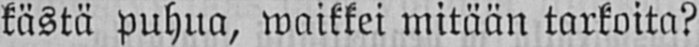kästä puhua, waikkei mitään tarkoita?
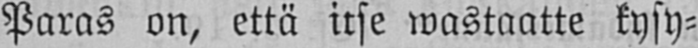Paras on, että itse wastaatte kysy-
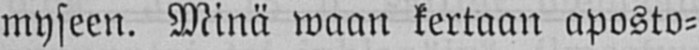myseen. Minä waan kertaan aposto-
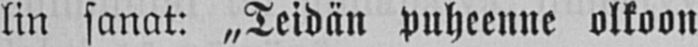lin sanat: „Teidän puheenne olkoon
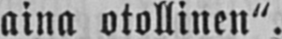aina otollinen".
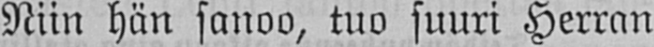Niin hän sanoo, tuo suuri Herran
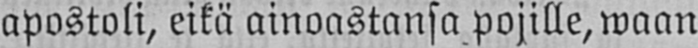apostoli, eikä ainoastansa pojille, waan
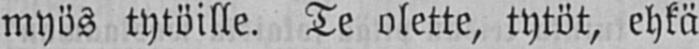myös tytöille. Te olette, tytöt, ehkä
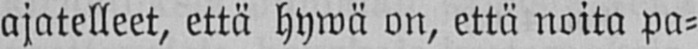ajatelleet, että hywä on, että noita pa-
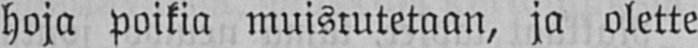hoja poikia muistutetaan, ja olette
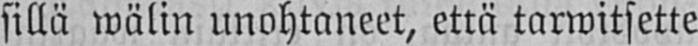sillä wälin unohtaneet, että tarwitsette
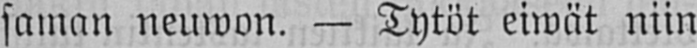saman neuwon. — Tytöt eiwät niin
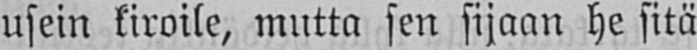usein kiroile, mutta sen sijaan he sitä
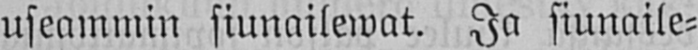useammin siunailewat. Ja siunaile-
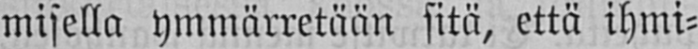misella ymmärretään sitä, että ihmi-
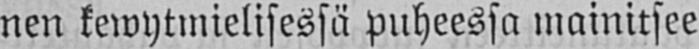nen kewytmielisessä puheessa mainitsee
